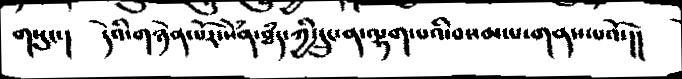གསུང་།    དེའི་གཉེན་པོར་སེཾན་ཐཾད་ཀྱི་དྲུང་ན་ལྷག་པའི་བསམ་པ་གནས་པའོ་།།
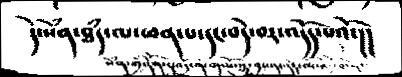དེ་སེཾན་ཐཾད་ལ་ཕན་པ་དང་བདེ་བར་འདོད་པའོ་།།
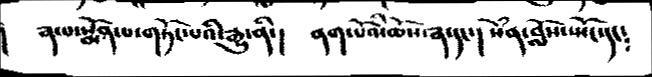སྣ་བ་སྨོན་པ་གཏོང་པའི་རྒྱུ་ནི་།   ནག་པོའི་ཆོས་སྣ་དང་།  སེཾན་བློས་སྤོང་དང༴
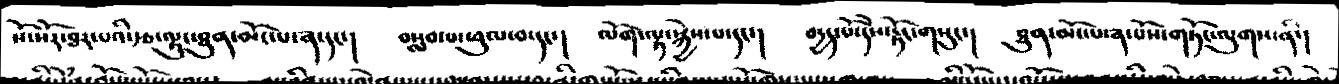སོ་སོར་ཐར་པའི་རྩ་ལྟུང་ཐུན་མོང་པ་སྣ་དང་།    བསླབ་པ་ཕུལ་བ་དང་།   ལོག་ལྟ་སྐྱེས་པ་དང་།   བདྱད་པོ་དེས་རྟོང་གསུང་།   ཐུན་མོང་པ་སྣ་པོས་གཏོང་ལུགས་ནི་།
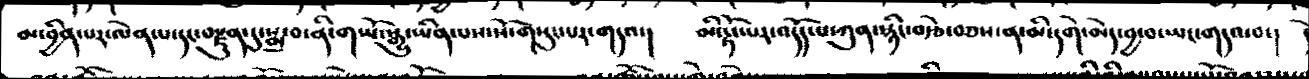མ་བྱིན་པར་ལེན་པ་དང་བརྫུན་དུ་སྨྲ་བ་ནི་གཡོ་སྒྱུ་ཡིན་པས་སོ་གསུང་པར་གདའ་།    མི་རྟོང་པར་འདོད་པ་ཀུན་སྙིང་བརྩེ་བཅས་ན་མི་དགེ་མེད་བྱ་བ་ཡང་གདའ་བ་།
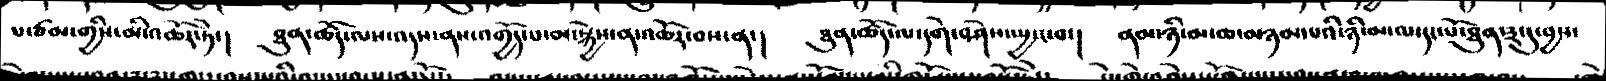པ་ཙམ་གྱིས་མི་འཆོར་ཏེ་།   ཐུན་ཚོད་ལས་འདས་ནས་འགྱོད་པ་མ་སྐྱེས་ན་འཆོར་བས་ན་།    ཐུན་ཚོད་ལ་དགེ་བཤེས་སྤྱ་ང་བ་།   ནམ་ཉི་མ་ཆ་མཉམ་པའི་ཉི་མ་ལ་དང་པོ་ཐུན་༣་དུ་བྱས་
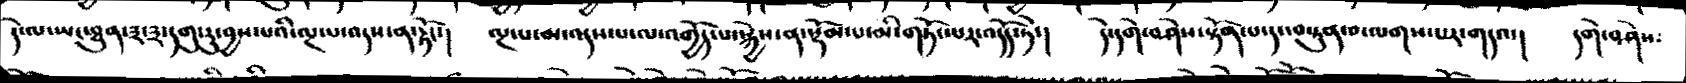དེ་ལ་ཡང་༣་༣་དགུ་རུ་བྱས་པའི་ལྔ་པ་འདས་ན་རྟོང་།   ལྔ་པ་མ་འདས་པ་ལ་འགྱོད་པ་སྐྱེས་ན་སྡོམ་པ་མི་གཏོང་པར་འདོད་ཏེ་།   དེ་དགེ་བཤེས་སྟོན་པ་དང་བསྟུན་པ་ལགས་པར་གདའ་།  དགེ་བཤེས༴
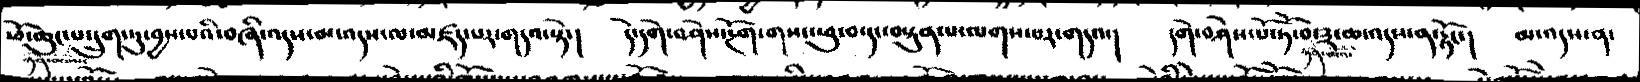ཕོ་ཆུང་ཉོན་མོངས་པ་དྲུག་ཏུ་བྱས་པའི་བཞི་འདས་མ་འདས་ལ་མཛད་པར་གདའ་སྟེ་།    དེ་དགེ་བཤེས་རྔོག་གསང་ཕུ་བ་དང་བསྟུན་པ་ལགས་པར་གདའ་།    དགེ་བཤེས་པོ་ཏོ་བ་ཉིན་མོ་༣་ཆ་འདས་ན་རྟོང་།  མ་འདས་ན་
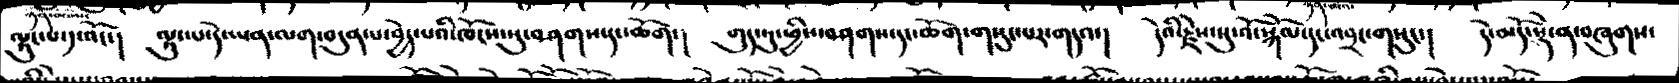ལྟུང་པ་༡་འོང་།   ལྟུང་པ་དེ་ཡན་ལག་བདུན་པ་བྱེད་པའི་ཁོངས་སུ་བཤགས་དང་ཆོག་།   གུད་ཏུ་ཕྱིས་བཤགས་དང་ཆོག་གསུང་པར་གདའ་།   དེའི་རྗེས་སུ་འོ་སྐོལ་དང་འབྲང་གསུང་།   དེ་མདོ་སྡེ་ན་བཞུགས་
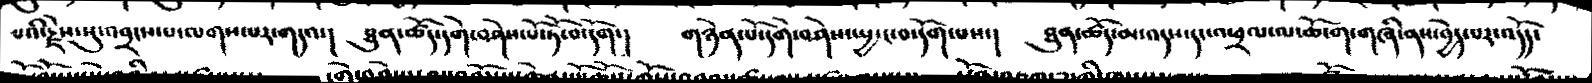པའི་རྗེས་སུ་འབྲངས་པ་ལགས་པར་གདའ་།    ཐུན་ཚོད་དགེ་བཤེས་པོ་ཏོ་བ་དོག་།   གཉེན་པོ་དགེ་བཤེས་སྤྱ་ང་བ་དོག་པས་།   ཐུན་ཚོད་མ་འདས་དང་འཕྲལ་ལ་ཆོ་ག་གཞི་ནས་བྱེད་པར་འདོད་
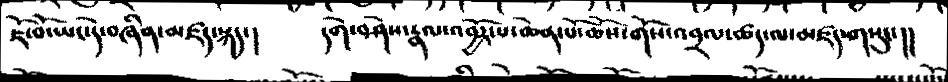ཇོ་བོ་ཡང་དེ་བཞིན་མཛད་སྐད་།   དགེ་བཤེས་རྣལ་འབྱོར་པ་ཆེན་པོ་ཆོས་གོས་འབྲལ་ཚད་ལ་མཛད་གསུང་།།
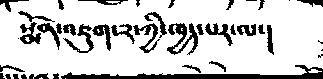སྨོན་འཇུག་༢་ཀྱི་ཁྱད་པར་ལ་།
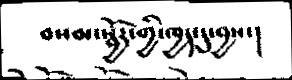བསམ་སྦྱོར་གྱི་ཁྱད་དུ་བྱས་།
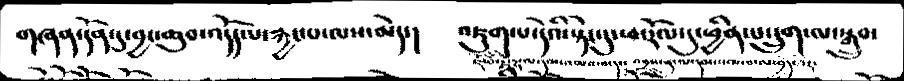གཞན་དོན་དུ་བྱང་ཆུབ་འདོད་པ་རྐྱང་པ་ལས་མེད་།   འཇུག་པ་དེའི་སྟེང་དུ་ཕ་རོལ་དུ་ཕྱིན་པ་དྲུག་ལ་སྒྲུབ་
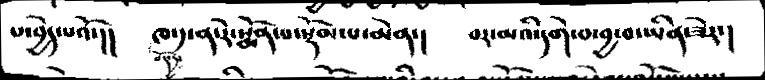པ་བྱེད་པའོ་།།   ཁ་༡་ན་རེ་སྨོན་པ་སྡོམ་པ་མེན་།   བར་མའི་དགེ་བ་བྱ་བ་ཡིན་ཟེར་།
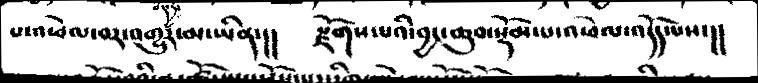པ་འཕེལ་བར་འགྱུར་མ་ཡིན་།།  རྫོགས་པའི་བྱང་ཆུབ་སྡོམ་པ་འཕེལ་འདོད་པས་།།
